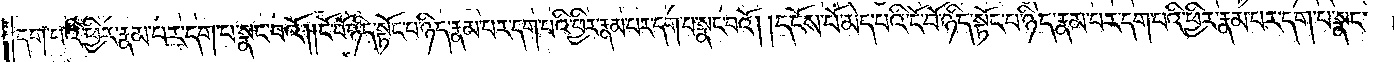དག་པའི་ཕྱིར་རྣམ་པར་དག་པ་སྣང་བའོ། །ངོ་བོ་ཉིད་སྟོང་པ་ཉིད་རྣམ་པར་དག་པའི་ཕྱིར་རྣམ་པར་དག་པ་སྣང་བའོ། །དངོས་པོ་མེད་པའི་ངོ་བོ་ཉིད་སྟོང་པ་ཉིད་རྣམ་པར་དག་པའི་ཕྱིར་རྣམ་པར་དག་པ་སྣང་
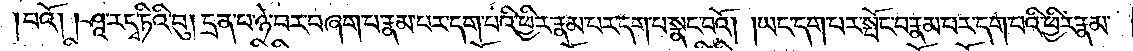བའོ། །ཤཱ་རདྭ་ཏིའི་བུ། དྲན་པ་ཉེ་བར་བཞག་པ་རྣམ་པར་དག་པའི་ཕྱིར་རྣམ་པར་དག་པ་སྣང་བའོ། །ཡང་དག་པར་སྤོང་བ་རྣམ་པར་དག་པའི་ཕྱིར་རྣམ་
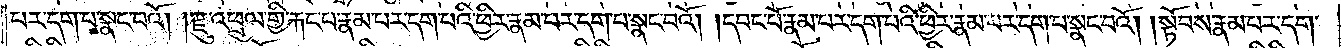པར་དག་པ་སྣང་བའོ། །རྫུ་འཕྲུལ་གྱི་རྐང་པ་རྣམ་པར་དག་པའི་ཕྱིར་རྣམ་པར་དག་པ་སྣང་བའོ། །དབང་པོ་རྣམ་པར་དག་པའི་ཕྱིར་རྣམ་པར་དག་པ་སྣང་བའོ། །སྟོབས་རྣམ་པར་དག་
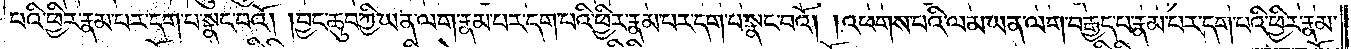པའི་ཕྱིར་རྣམ་པར་དག་པ་སྣང་བའོ། །བྱང་ཆུབ་ཀྱི་ཡན་ལག་རྣམ་པར་དག་པའི་ཕྱིར་རྣམ་པར་དག་པ་སྣང་བའོ། །འཕགས་པའི་ལམ་ཡན་ལག་བརྒྱད་པ་རྣམ་པར་དག་པའི་ཕྱིར་རྣམ་
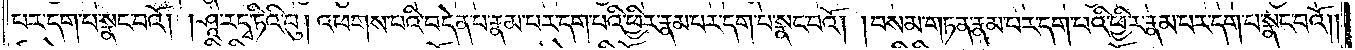པར་དག་པ་སྣང་བའོ། །ཤཱ་ར་དྭ་ཏིའི་བུ། འཕགས་པའི་བདེན་པ་རྣམ་པར་དག་པའི་ཕྱིར་རྣམ་པར་དག་པ་སྣང་བའོ། །བསམ་གཏན་རྣམ་པར་དག་པའི་ཕྱིར་རྣམ་པར་དག་པ་སྣང་བའོ༎
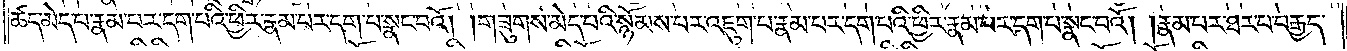ཚད་མེད་པ་རྣམ་པར་དག་པའི་ཕྱིར་རྣམ་པར་དག་པ་སྣང་བའོ། །གཟུགས་མེད་པའི་སྙོམས་པར་འཇུག་པ་རྣམ་པར་དག་པའི་ཕྱིར་རྣམ་པར་དག་པ་སྣང་བའོ། །རྣམ་པར་ཐར་པ་བརྒྱད་
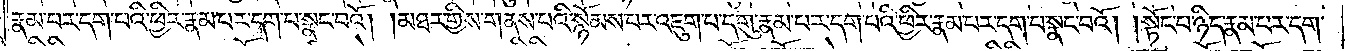རྣམ་པར་དག་པའི་ཕྱིར་རྣམ་པར་དག་པ་སྣང་བའོ། །མཐར་གྱིས་གནས་པའི་སྙོམས་པར་འཇུག་པ་དགུ་རྣམ་པར་དག་པའི་ཕྱིར་རྣམ་པར་དག་པ་སྣང་བའོ། །སྟོང་པ་ཉིད་རྣམ་པར་དག་
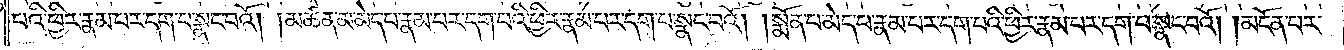པའི་ཕྱིར་རྣམ་པར་དག་པ་སྣང་བའོ། །མཚན་མ་མེད་པ་རྣམ་པར་དག་པའི་ཕྱིར་རྣམ་པར་དག་པ་སྣང་བའོ། །སྨོན་པ་མེད་པ་རྣམ་པར་དག་པའི་ཕྱིར་རྣམ་པར་དག་པ་སྣང་བའོ། །མངོན་པར་
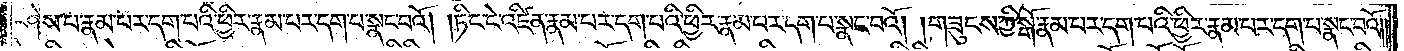ཤེས་པ་རྣམ་པར་དག་པའི་ཕྱིར་རྣམ་པར་དག་པ་སྣང་བའོ། །ཏིང་ངེ་འཛིན་རྣམ་པར་དག་པའི་ཕྱིར་རྣམ་པར་དག་པ་སྣང་བའོ། །གཟུངས་ཀྱི་སྒོ་རྣམ་པར་དག་པའི་ཕྱིར་རྣམ་པར་དག་པ་སྣང་བའོ། །
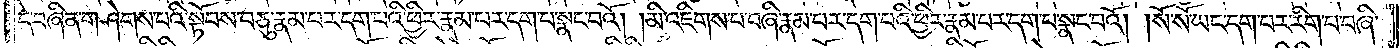དེ་བཞིན་གཤེགས་པའི་སྟོབས་བཅུ་རྣམ་པར་དག་པའི་ཕྱིར་རྣམ་པར་དག་པ་སྣང་བའོ། །མི་འཇིགས་པ་བཞི་རྣམ་པར་དག་པའི་ཕྱིར་རྣམ་པར་དག་པ་སྣང་བའོ། །སོ་སོ་ཡང་དག་པར་རིག་པ་བཞི་
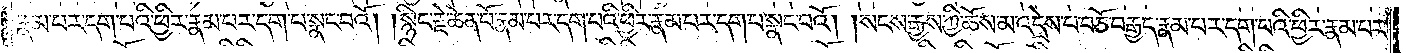རྣམ་པར་དག་པའི་ཕྱིར་རྣམ་པར་དག་པ་སྣང་བའོ། །སྙིང་རྗེ་ཆེན་པོ་རྣམ་པར་དག་པའི་ཕྱིར་རྣམ་པར་དག་པ་སྣང་བའོ། །སངས་རྒྱས་ཀྱི་ཆོས་མ་འདྲེས་པ་བཅོ་བརྒྱད་རྣམ་པར་དག་པའི་ཕྱིར་རྣམ་པར་
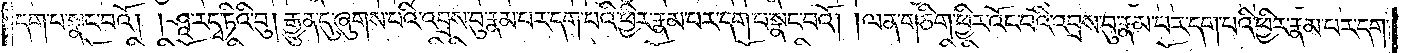དག་པ་སྣང་བའོ། །ཤཱ་རདྭ་ཏིའི་བུ། རྒྱུན་དུ་ཞུགས་པའི་འབྲས་བུ་རྣམ་པར་དག་པའི་ཕྱིར་རྣམ་པར་དག་པ་སྣང་བའོ། །ལན་གཅིག་ཕྱིར་འོང་བའི་འབྲས་བུ་རྣམ་པར་དག་པའི་ཕྱིར་རྣམ་པར་དག་
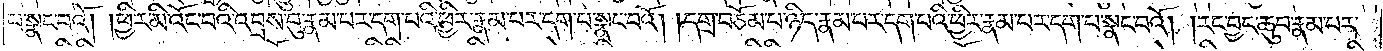པ་སྣང་བའོ། །ཕྱིར་མི་འོང་བའི་འབྲས་བུ་རྣམ་པར་དག་པའི་ཕྱིར་རྣམ་པར་དག་པ་སྣང་བའོ། །དགྲ་བཅོམ་པ་ཉིད་རྣམ་པར་དག་པའི་ཕྱིར་རྣམ་པར་དག་པ་སྣང་བའོ། །རང་བྱང་ཆུབ་རྣམ་པར་
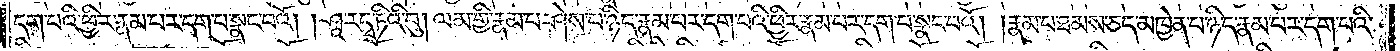དག་པའི་ཕྱིར་རྣམ་པར་དག་པ་སྣང་བའོ། །ཤཱ་རདྭ་ཏིའི་བུ། ལམ་གྱི་རྣམ་པ་ཤེས་པ་ཉིད་རྣམ་པར་དག་པའི་ཕྱིར་རྣམ་པར་དག་པ་སྣང་བའོ། །རྣམ་པ་ཐམས་ཅད་མཁྱེན་པ་ཉིད་རྣམ་པར་དག་པའི་
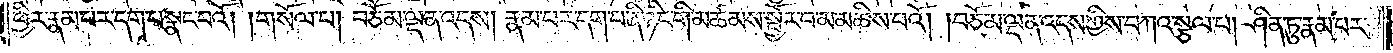ཕྱིར་རྣམ་པར་དག་པ་སྣང་བའོ། །གསོལ་པ། བཅོམ་ལྡན་འདས། རྣམ་པར་དག་པ་ནི་ཉིང་གི་མཚམས་སྦྱོར་བ་མ་མཆིས་པའོ། །བཅོམ་ལྡན་འདས་ཀྱིས་བཀའ་སྩལ་པ། ཤིན་ཏུ་རྣམ་པར་
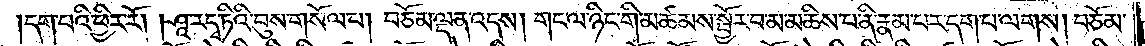དག་པའི་ཕྱིར་རོ། །ཤཱ་རདྭ་ཏིའི་བུས་གསོལ་པ། བཅོམ་ལྡན་འདས། གང་ལ་ཉིང་གི་མཚམས་སྦྱོར་བ་མ་མཆིས་པ་ནི་རྣམ་པར་དག་པ་ལགས། བཅོམ་
